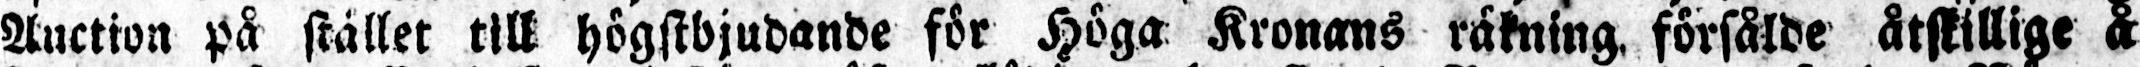Auction på stället till högstbjudande för Höga Kronans räkning, försålde åtskillige å
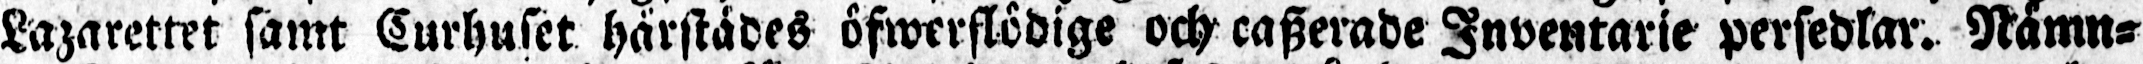Lazarettet samt Curhuset härstädes öfwerflödige och caszerade Inventarie persedlar. Nämn-
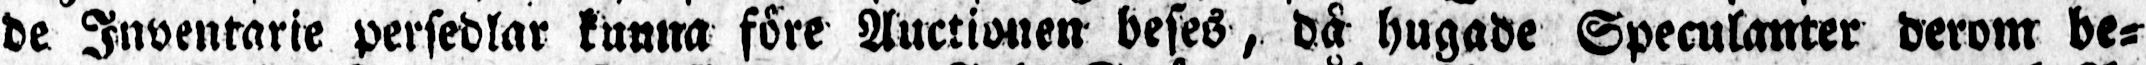de Inventarie persedlar kunna före Auctionen beses, då hugade Speculanter derom be-
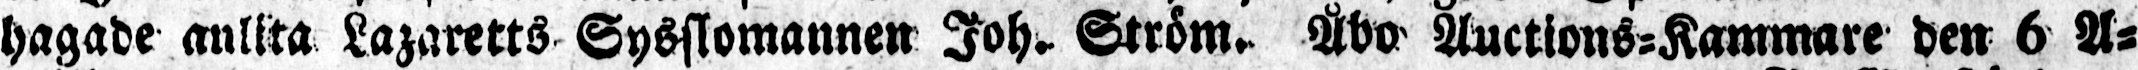hagade anlita Lazaretts Sysslomannen Joh. Ström. Åbo Auctions-Kammare den 6 A-
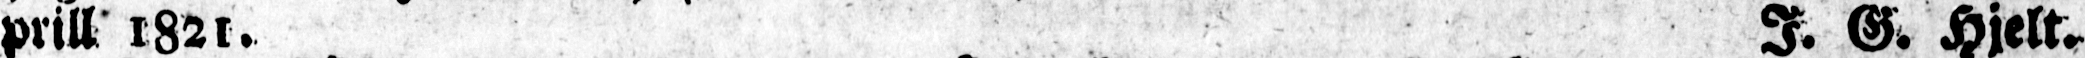prill 1821. I. G. Hjelt.
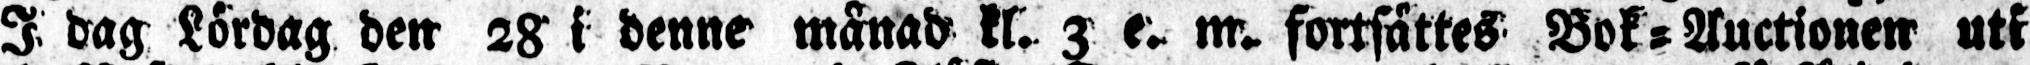I dag Lördag den 28 i denne månad kl. 3 e. m. fortsättes Bok-Auctionen uti
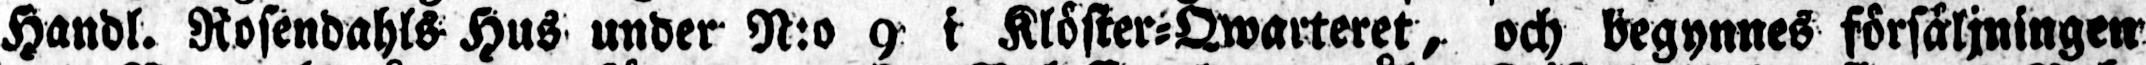Handl. Rosendahls Hus under N:o 9 i Klöster-Qwarteret, och begynnes försäljningen
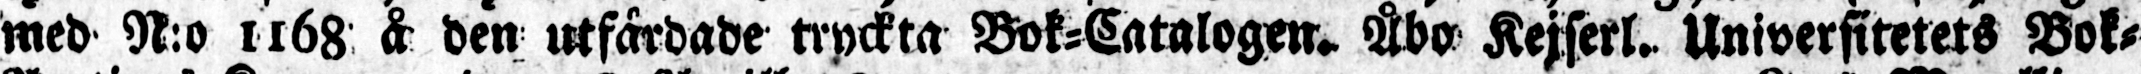med N:o 1168 å den utfärdade tryckta Bok-Catalogen. Åbo Kejserl. Universitetets Bok-
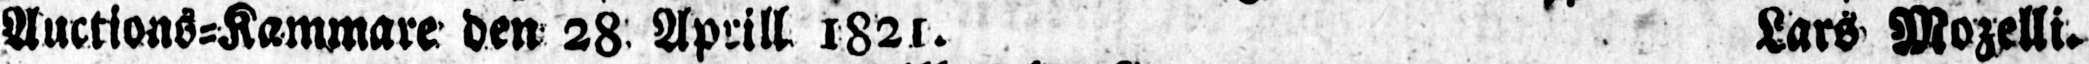Auctions-Kammare den 28 Aprill 182l. Lars Mozelli.
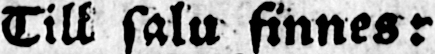Till salu finnes:
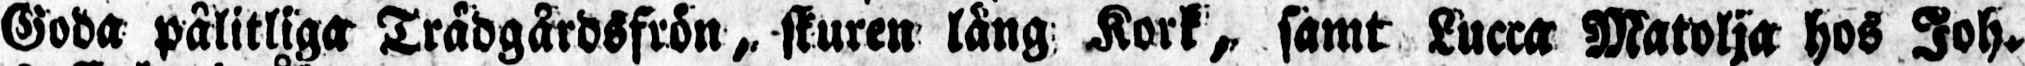Goda pålitliga Trädgårdsfrön, skuren lång Kork, samt Lucca Matolja hos Joh.
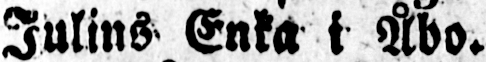Julins Enka i Åbo.
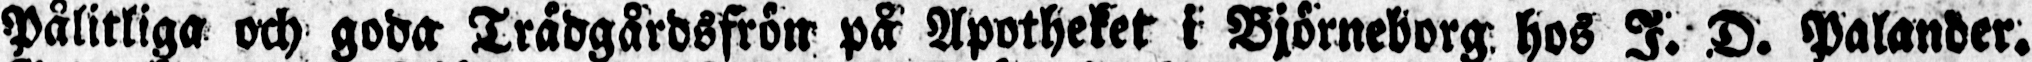Pålitliga och goda Trädgårdsfrön på Apotheket i Björneborg hos I. D. Palander.
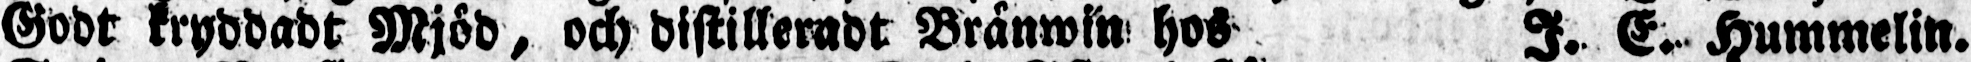Godt kryddadt Mjöd, och distilleradt Bränwin hos I. E. Hummelin.
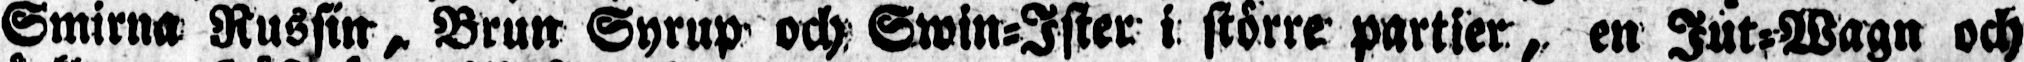Smirna Russin, Brun Syrup och Swin-Ister i större partier, en Jut-Wagn och
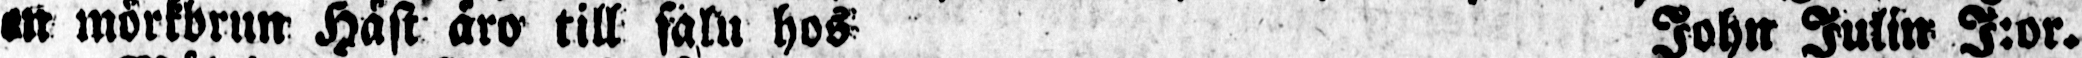en mörkbrun Häst äro till salu hos John Julin I:or.
